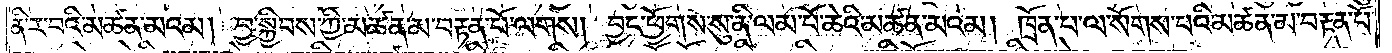ནི་ར་བའི་མཚན་མའམ། བྱ་སྐྱིབས་ཀྱི་མཚན་མ་བརྟན་པོ་ལགས། བྱང་ཕྱོགས་སུ་ནི་ལམ་པོ་ཆེའི་མཚན་མའམ། ཁྲོན་པ་ལ་སོགས་པའི་མཚན་མ་བརྟན་པོ་
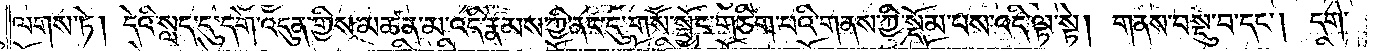ལགས་ཏེ། དེའི་སླད་དུ་དགེ་འདུན་གྱིས་མཚན་མ་འདི་རྣམས་ཀྱི་ནང་དུ་གསོ་སྦྱོང་གཅིག་པའི་གནས་ཀྱི་སྡོམ་པས་འདི་ལྟ་སྟེ། གནས་བསྡུ་བ་དང༌། དགེ་
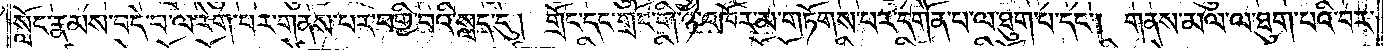སློང་རྣམས་བདེ་བ་ལ་རེག་པར་གནས་པར་བགྱི་བའི་སླད་དུ། གྲོང་དང་གྲོང་གི་ཉེ་འཁོར་མ་གཏོགས་པར་དགོན་པ་ལ་ཐུག་པ་དང༌། གནས་མལ་ལ་ཐུག་པའི་བར་
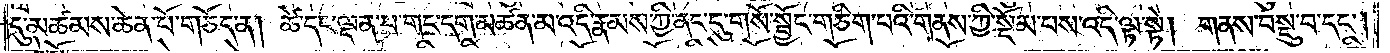དུ་མཚམས་ཆེན་པོ་གཅོད་ན། ཚེ་དང་ལྡན་པ་གང་དག་མཚན་མ་འདི་རྣམས་ཀྱི་ནང་དུ་གསོ་སྦྱོང་གཅིག་པའི་གནས་ཀྱི་སྡོམ་པས་འདི་ལྟ་སྟེ། གནས་བསྡུ་བ་དང༌།
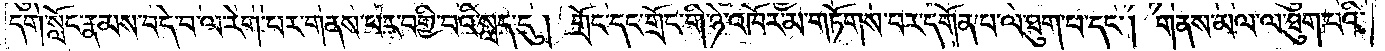དགེ་སློང་རྣམས་བདེ་བ་ལ་རེག་པར་གནས་པར་བགྱི་བའི་སླད་དུ། གྲོང་དང་གྲོང་གི་ཉེ་འཁོར་མ་གཏོགས་པར་དགོན་པ་ལ་ཐུག་པ་དང༌། གནས་མལ་ལ་ཐུག་པའི་
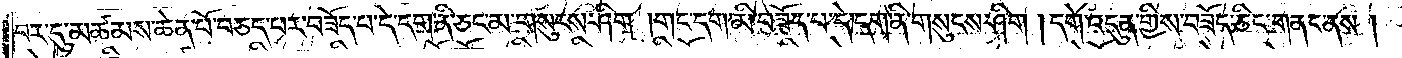བར་དུ་མཚམས་ཆེན་པོ་བཅད་པར་བཟོད་པ་དེ་དག་ནི་ཅང་མ་གསུངས་ཤིག །གང་དག་མི་བཟོད་པ་དེ་དག་ནི་གསུངས་ཤིག །དགེ་འདུན་གྱིས་བཟོད་ཅིང་གནང་ནས།
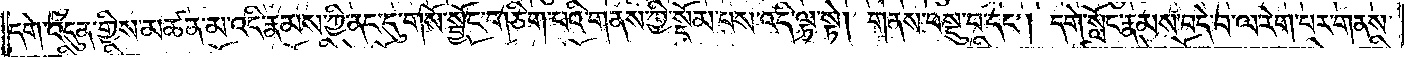དགེ་འདུན་གྱིས་མཚན་མ་འདི་རྣམས་ཀྱི་ནང་དུ་གསོ་སྦྱོང་གཅིག་པའི་གནས་ཀྱི་སྡོམ་པས་འདི་ལྟ་སྟེ། གནས་བསྡུ་བ་དང༌། དགེ་སློང་རྣམས་བདེ་བ་ལ་རེག་པར་གནས་
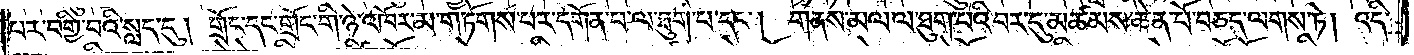པར་བགྱི་བའི་སླད་དུ། གྲོང་དང་གྲོང་གི་ཉེ་འཁོར་མ་གཏོགས་པར་དགོན་པ་ལ་ཐུག་པ་དང༌། གནས་མལ་ལ་ཐུག་པའི་བར་དུ་མཚམས་ཆེན་པོ་བཅད་ལགས་ཏེ། འདི་
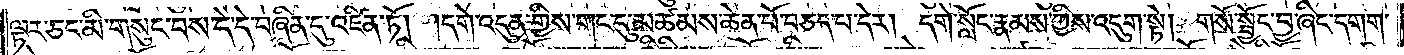ལྟར་ཅང་མི་གསུང་བས་དེ་དེ་བཞིན་དུ་འཛིན་ཏོ། །དགེ་འདུན་གྱིས་གང་དུ་མཚམས་ཆེན་པོ་བཅད་པ་དེར། དགེ་སློང་རྣམས་ཀྱིས་འདུག་སྟེ། གསོ་སྦྱོང་བྱ་ཞིང་དགག་
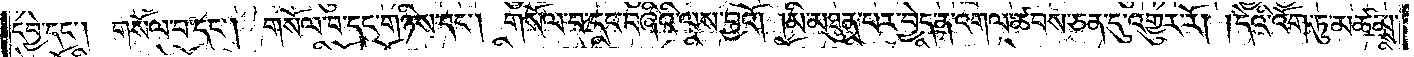དབྱེ་དང༌། གསོལ་བ་དང༌། གསོལ་བ་དང་གཉིས་དང༌། གསོལ་བ་དང་བཞིའི་ལས་བྱའོ། །མི་མཐུན་པར་བྱེད་ན་འགལ་ཚབས་ཅན་དུ་འགྱུར་རོ། །དེའི་འོག་ཏུ་མཚམས་
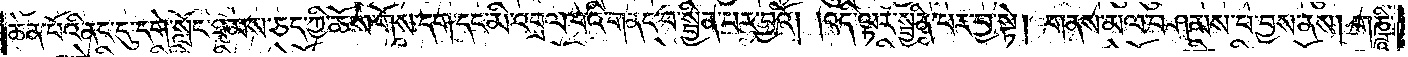ཆེན་པོའི་ནང་དུ་དགེ་སློང་ཐམས་ཅད་ཀྱི་ཆོས་གོས་དག་དང་མི་འབྲལ་བའི་གནང་བ་སྦྱིན་པར་བྱའོ། །འདི་ལྟར་སྦྱིན་པར་བྱ་སྟེ། གནས་མལ་བཤམས་པ་བྱས་ནས། གཎྜཱི་
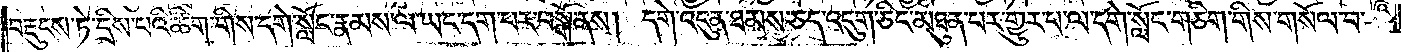བརྡུངས་ཏེ་དྲིས་པའི་ཚིག་གིས་དགེ་སློང་རྣམས་ལ་ཡང་དག་པར་བསྒོ་ནས། དགེ་འདུན་ཐམས་ཅད་འདུག་ཅིང་མཐུན་པར་གྱུར་བ་ལ་དགེ་སློང་གཅིག་གིས་གསོལ་བ་
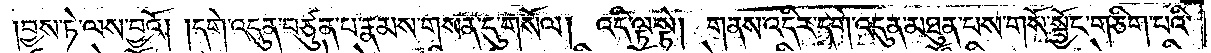བྱས་ཏེ་ལས་བྱའོ། །དགེ་འདུན་བཙུན་པ་རྣམས་གསན་དུ་གསོལ། འདི་ལྟ་སྟེ། གནས་འདིར་དགེ་འདུན་མཐུན་པས་གསོ་སྦྱོང་གཅིག་པའི་
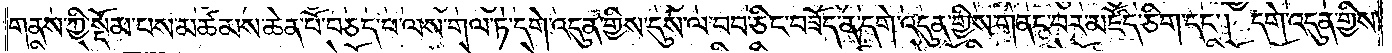གནས་ཀྱི་སྡོམ་པས་མཚམས་ཆེན་པོ་བཅད་པ་ལས་གལ་ཏེ་དགེ་འདུན་གྱིས་དུས་ལ་བབ་ཅིང་བཟོད་ན་དགེ་འདུན་གྱིས་གནང་བར་མཛོད་ཅིག་དང༌། དགེ་འདུན་གྱིས་
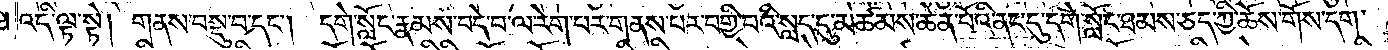འདི་ལྟ་སྟེ། གནས་བསྡུ་བ་དང༌། དགེ་སློང་རྣམས་བདེ་བ་ལ་རེག་པར་གནས་པར་བགྱི་བའི་སླད་དུ་མཚམས་ཆེན་པོའི་ནང་དུ་དགེ་སློང་ཐམས་ཅད་ཀྱི་ཆོས་གོས་དག་
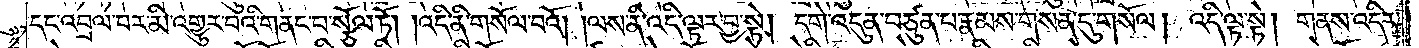དང་འབྲལ་བར་མི་འགྱུར་བའི་གནང་བ་སྩོལ་ཏོ། །འདི་ནི་གསོལ་བའོ། །ལས་ནི་འདི་ལྟར་བྱ་སྟེ། དགེ་འདུན་བཙུན་པ་རྣམས་གསན་དུ་གསོལ། འདི་ལྟ་སྟེ། གནས་འདིར་
